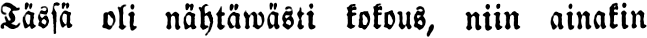Tässä oli nähtäwästi kokous, niin ainakin
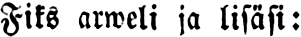Fiks arweli ja lisäsi:
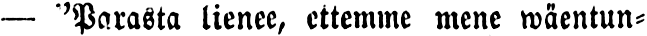— "Parasta lienee, ettemme mene wäentun-
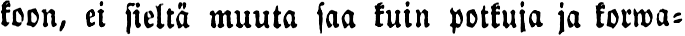koon, ei sieltä muuta saa kuin potkuja ja korwa-
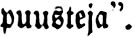puusteja".
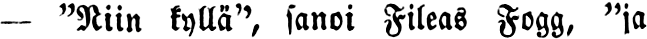— "Niin kyllä", sanoi Fileas Fogg, "ja
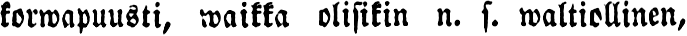korwapuusti, waikka olisikin n. s. waltiollinen,
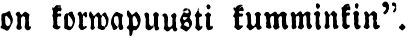on korwapuusti kumminkin".
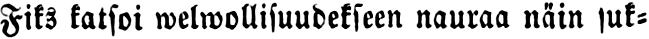Fiks katsoi welwollisuudekseen nauraa näin su-
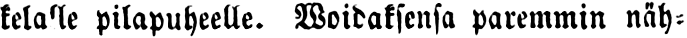kela'le pilapuheelle. Woidaksensa paremmin näh-
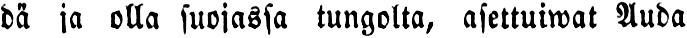dä ja olla suojassa tungolta, asettuiwat Auda
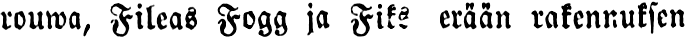rouwa, Fileas Fogg ja Fiks erään rakennuksen
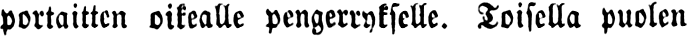portaitten oikealle pengerrykselle. Toisella puolen
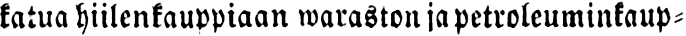katua hiilenkauppiaan waraston ja petroleuminkaup-
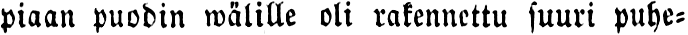piaan puodin wälille oli rakennettu suuri puhe-
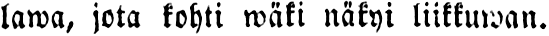lawa, jota kohti wäki näkyi liikkuwan.
